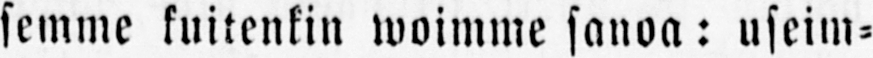semme kuitenkin woimme sanoa: useim-
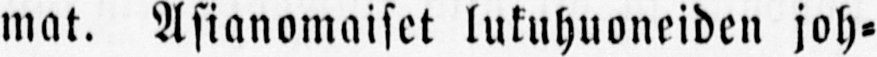mat. Asianomaiset lukuhuoneiden joh-
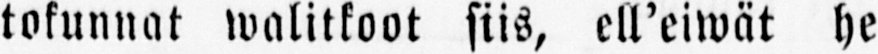tokunnat walitkoot siis, ell'eiwät he
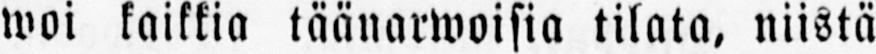woi kaikkia täänarwoisia tilata, niistä
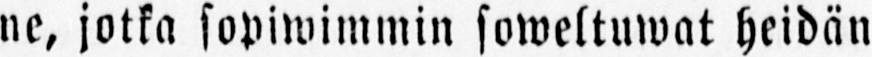ne, jotka sopiwimmin soweltuwat heidän
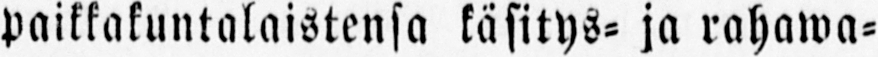paikkakuntalaistensa käsitys- ja rahawa-
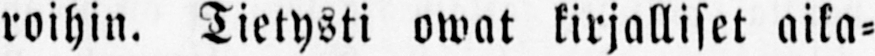roihin. Tietysti owat kirjalliset aika-
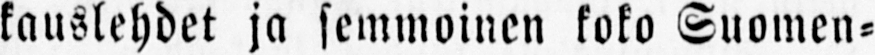kauslehdet ja semmoinen koko Suomen-
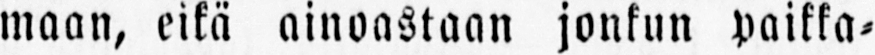maan, eikä ainoastaan jonkun paikka-
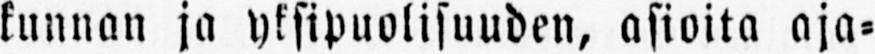kunnan ja yksipuolisuuden, asioita aja-
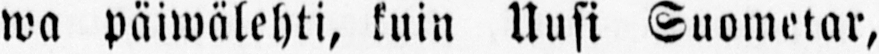wa päiwälehti, kuin Uusi Suometar,
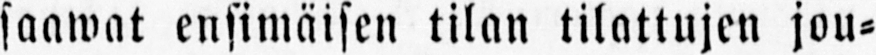saawat ensimäisen tilan tilattujen jou-
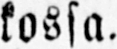kossa.
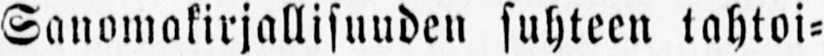Sanomakirjallisuuden suhteen tahtoi-
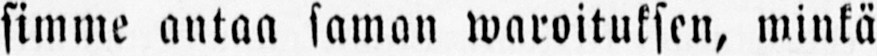simme antaa saman waroituksen, minkä
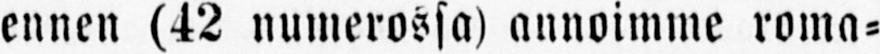ennen (42 numerossa) annoimme roma-
